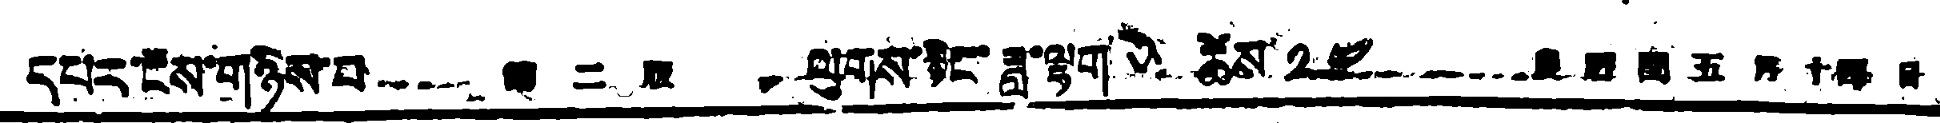དཔར་ངོས་གཉིས་པ 第二版 ལུགས་རྙིང་ཟླ་ལྷག ༥ ཚེས་ ༡༤ 農 曆 閏 五 月 十四 日
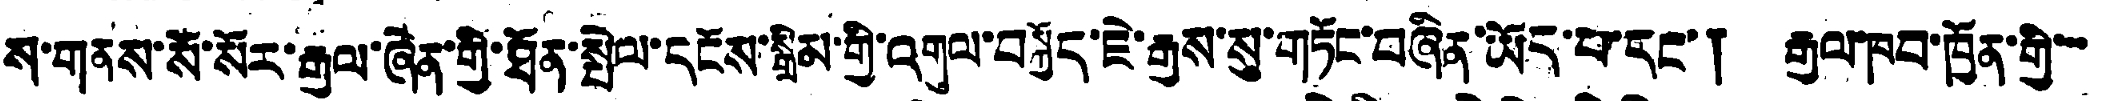ས་གནས་སོ་སོར་རྒྱལ་ཞེན་གྱི་ཐོན་སྤེལ་དངོས་སྒྲིམ་གྱི་འགུལ་བསྐྱོད་ཇེ་རྒྱས་སུ་གཏོང་བཞིན་ཡོད་པ་དང་། རྒྱལ་ཁབ་ཁྱོན་གྱི་་་
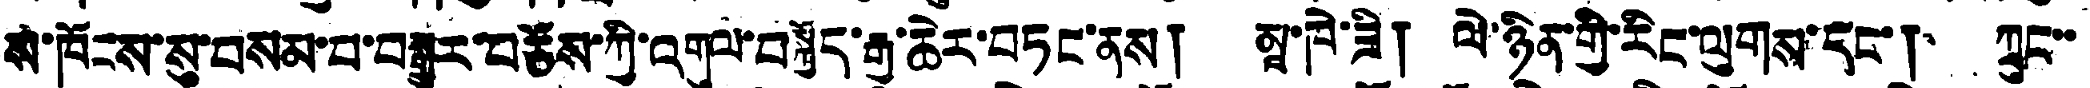སི་ཁོངས་ས་བསམ་པ་བརྒྱུར་བཅོས་ཀྱི་འགུལ་བསྐྱོད་རྒྱ་ཆེར་བཏང་ནས། མཱ་ཁེ་ཟི། ལེ་ཉིན་གྱི་རིང་ལུགས་དང་། ཀྲུང་་
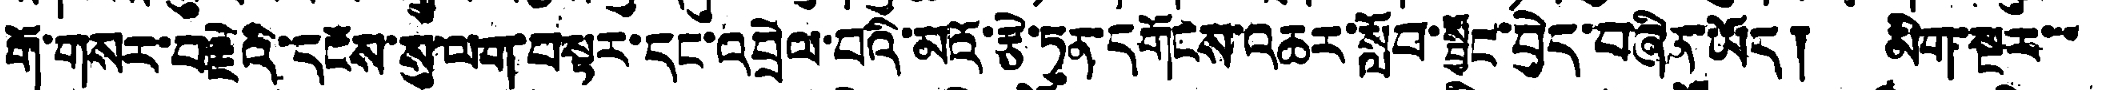གོ་གསར་བརྗེའི་དངོས་སུ་ལག་བསྟར་དང་འབྲེལ་བའི་མའོ་རྩེ་ཏུན་དགོངས་འཆར་སློབ་སྦྱང་བྱེད་བཞིན་ཡོད། མིག་སྔར་་་
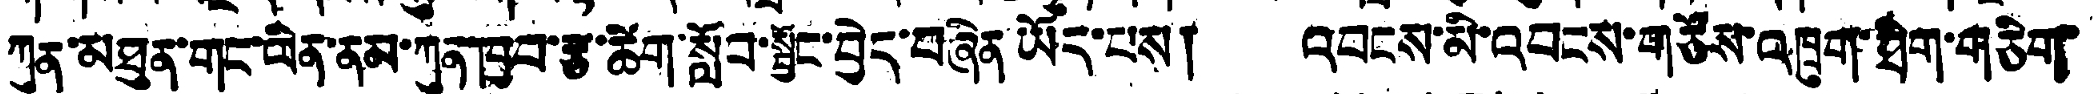ཀུན་མཐུན་གང་ལིན་ནམ་ཀུན་ཁྱབ་རྩ་ཚིག་སློབ་སྦྱོང་བྱེད་བཞིན ཡོད་པས། འབངས་མི་འབངས་གཙོས་འཁྲུག་ཐིག་གཅིག་
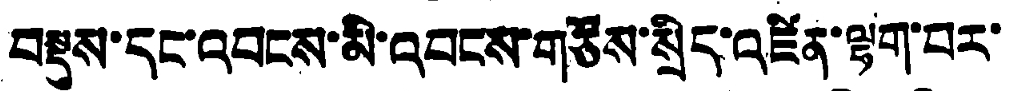བསྡུས་དང་འབངས་མི་འབངས་གཙོས་སྲིད་འཛིན་ལྷག་པར་
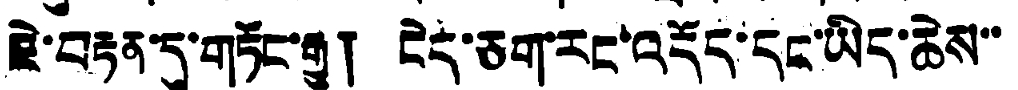ཇེ་བརྟན་དུ་གཏོང་རྒྱུ། ངེད་ཅག་རང་འདོད་དང་ཡིད་ཆེས་་
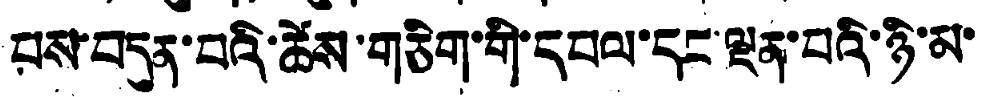པས་བདུན་པའི་ཚེས་གཅིག་གི་དཔལ་དང་ལྡན་པའི་ཉི་མ་
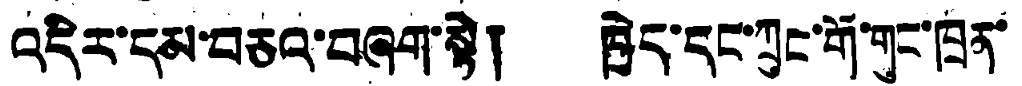འདིར་དམ་བཅའ་བཞག་སྟེ། ཁྱེད་དང་ཀྲུང་གོ་གུང་ཁྲན་
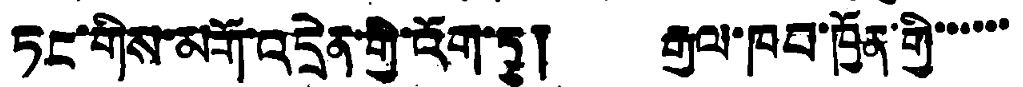ཏང་གིས་མགོ་འདྲེན་གྱི་འོག་ཏུ། རྒྱལ་ཁབ་ཁྱོན་གྱི་་་་་་
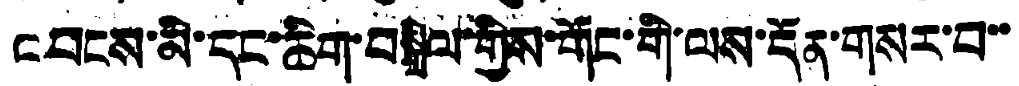འབངས་མི་དང་ཆིག་བསྒྲིལ་གྱིས་གོང་གི་ལས་དོན་གསར་བ་་
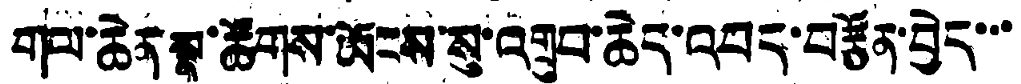གལ་ཆེན སྣ་ཚོགས་ཡོངས་སུ་འགྲུབ་ཆེད་འབད་བརྩོན་བྱེད་་་
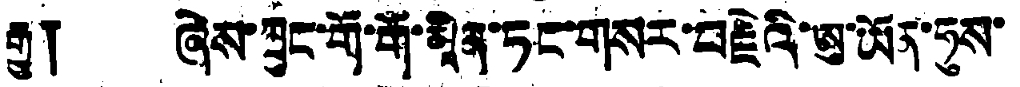རྒྱུ། ཞེས་ཀྲུང་གོ་གོ་མཱིན་ཏང་གསར་བརྗེའི་ཨུ་ཡོན་ཧུས་
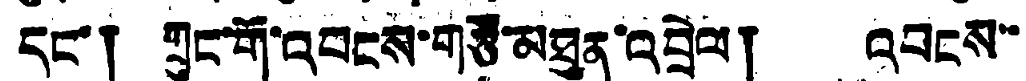དང་། གྲུང་གོ་འབངས་གཙོ་མཐུན་འབྲེལ། འབངས་་
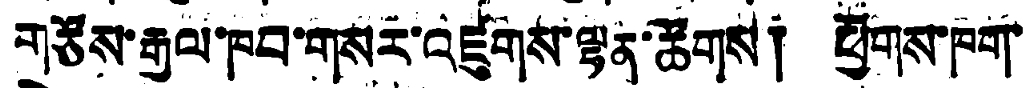གཙོས་རྒྱལ་ཁབ་གསར་འཛུགས་ལྷན་ཚོགས། ཕྱོགས་ཁག་
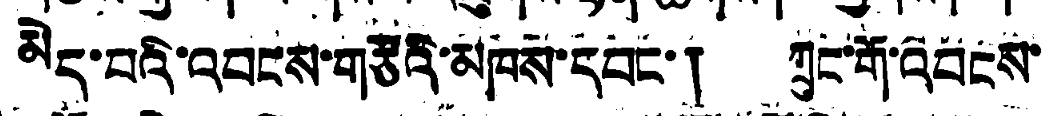མེད་པའི་འབངས་གཙོའི་མཁས་དབང་། ཀྲུང་གོ་འབངས་
